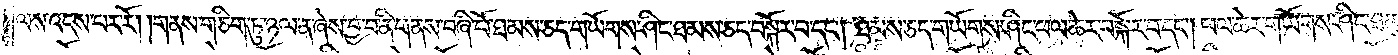ལས་འདས་པར་རོ། །གནས་གཅིག་ཏུ་ཉལ་ན་ཞེས་བྱ་བ་ནི་གནས་བཞི་པོ་ཐམས་ཅད་གཡོགས་ཤིང་ཐམས་ཅད་བསྐོར་བ་དང༌། ཐམས་ཅད་གཡོགས་ཤིང་ཕལ་ཆེར་བསྐོར་བ་དང༌། ཕལ་ཆེར་གཡོགས་ཤིང་ཐམས་
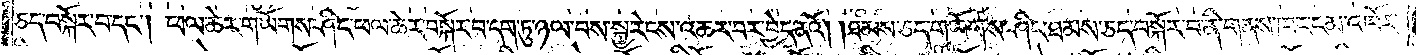ཅད་བསྐོར་བ་དང༌། ཕལ་ཆེར་གཡོགས་ཤིང་ཕལ་ཆེར་བསྐོར་བ་དག་ཏུ་ཉལ་བས་སྐྱ་རེངས་འཆར་བར་བྱེད་ནའོ། །ཐམས་ཅད་གཡོགས་ཤིང་ཐམས་ཅད་བསྐོར་བ་ནི་གནས་ཁང་ངམ་འཁོར་
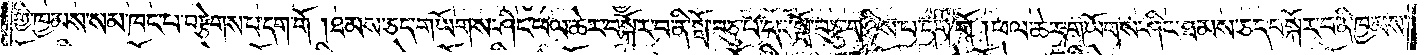གྱི་ཁྱམས་སམ་ཁང་པ་བརྩེགས་པ་དག་གོ །ཐམས་ཅད་གཡོགས་ཤིང་ཕལ་ཆེར་བསྐོར་བ་ནི་སྒོ་བཅུ་པ་དང་སྒོ་བཅུ་གཉིས་པ་དག་གོ །ཕལ་ཆེར་གཡོགས་ཤིང་ཐམས་ཅད་བསྐོར་བ་ནི་ཁྱམས་
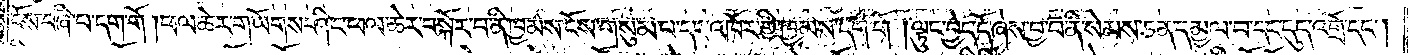ངོས་བཞི་པ་དག་གོ །ཕལ་ཆེར་གཡོགས་ཤིང་ཕལ་ཆེར་བསྐོར་བ་ནི་ཁྱམས་ངོས་གསུམ་པ་དང་འཁོར་གྱི་ཁྱམས་དག་གོ །ལྟུང་བྱེད་དོ་ཞེས་བྱ་བ་ནི་སེམས་ཅན་དམྱལ་བ་དང་དུད་འགྲོ་དང༌།
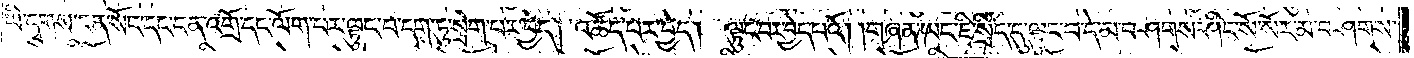ཡི་དྭགས་ངན་སོང་དང་ངན་འགྲོ་དང་ལོག་པར་ལྟུང་བ་དག་ཏུ་སྲེག་པར་བྱེད། འཚོད་པར་བྱེད། ལྟུང་བར་བྱེད་པའོ། །གཞན་ཡང་ཇི་སྲིད་དུ་ལྟུང་བ་དེ་མ་བཤགས་ཤིང་སོ་སོར་མ་བཤགས་
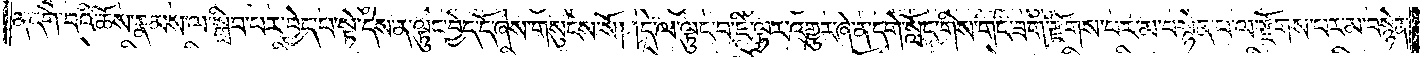ན་དགེ་བའི་ཆོས་རྣམས་ལ་སྒྲིབ་པར་བྱེད་པ་སྟེ་དེས་ན་ལྟུང་བྱེད་དོ་ཞེས་གསུངས་སོ། །དེ་ལ་ལྟུང་བ་ཇི་ལྟར་འགྱུར་ཞེ་ན་དགེ་སློང་གིས་གང་ཟག་རྫོགས་པར་མ་བསྙེན་པ་ལ་རྫོགས་པར་མ་བསྙེན་
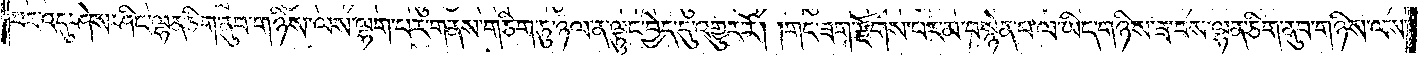པར་འདུ་ཤེས་ཤིང་ལྷན་ཅིག་ནུབ་གཉིས་ལས་ལྷག་པར་གནས་གཅིག་ཏུ་ཉལ་ན་ལྟུང་བྱེད་དུ་འགྱུར་རོ། །གང་ཟག་རྫོགས་པར་མ་བསྙེན་པ་ལ་ཡིད་གཉིས་ཟ་བས་ལྷན་ཅིག་ནུབ་གཉིས་ལས་
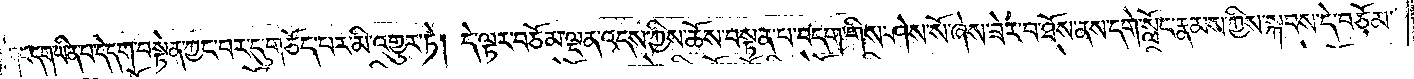གང་དག་ཡིན་པ་དེ་དག་བསྟེན་ཀྱང་བར་དུ་གཅོད་པར་མི་འགྱུར་ཏེ། དེ་ལྟར་བཅོམ་ལྡན་འདས་ཀྱིས་ཆོས་བསྟན་པ་བདག་གིས་ཤེས་སོ་ཞེས་ཟེར་བ་ཐོས་ནས་དགེ་སློང་རྣམས་ཀྱིས་སྐབས་དེ་བཅོམ་
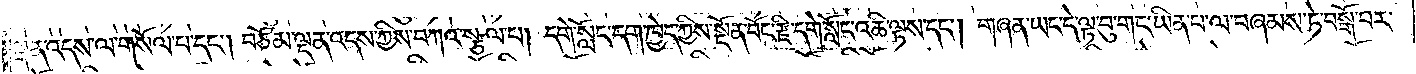ལྡན་འདས་ལ་གསོལ་པ་དང༌། བཅོམ་ལྡན་འདས་ཀྱིས་བཀའ་སྩལ་པ། དགེ་སློང་དག་ཁྱེད་ཀྱིས་སྔོན་བོང་རྫི་དགེ་སློང་འཆི་ལྟས་དང༌། གཞན་ཡང་དེ་ལྟ་བུ་གང་ཡིན་པ་ལ་བཞམས་ཏེ་བསྒོ་བར་
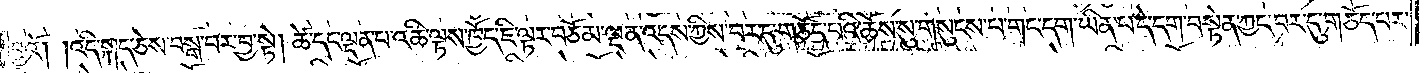བྱའོ། །འདི་སྐད་ཅེས་བསྒོ་བར་བྱ་སྟེ། ཚེ་དང་ལྡན་པ་འཆི་ལྟས་ཁྱོད་ཇི་ལྟར་བཅོམ་ལྡན་འདས་ཀྱིས་བར་དུ་གཅོད་པའི་ཆོས་སུ་གསུངས་པ་གང་དག་ཡིན་པ་དེ་དག་བསྟེན་ཀྱང་བར་དུ་གཅོད་པར་
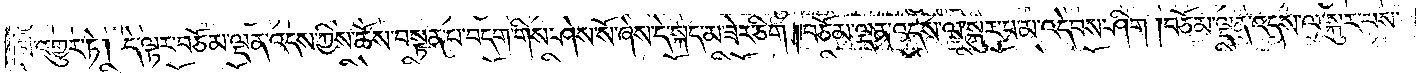མི་འགྱུར་ཏེ། དེ་ལྟར་བཅོམ་ལྡན་འདས་ཀྱིས་ཆོས་བསྟན་པ་བདག་གིས་ཤེས་སོ་ཞེས་དེ་སྐད་མ་ཟེར་ཅིག །བཅོམ་ལྡན་འདས་ལ་སྐུར་པ་མ་འདེབས་ཤིག །བཅོམ་ལྡན་འདས་ལ་སྐུར་པས་
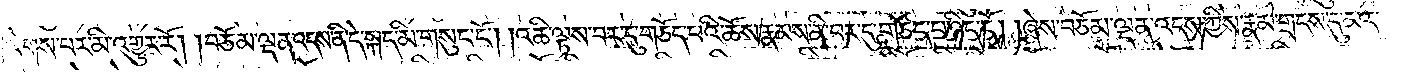ལེགས་པར་མི་འགྱུར་རོ། །བཅོམ་ལྡན་འདས་ནི་དེ་སྐད་མི་གསུང་ངོ༌། །འཆི་ལྟས་བར་དུ་གཅོད་པའི་ཆོས་རྣམས་ནི་བར་དུ་གཅོད་པ་ཉིད་དོ། །ཞེས་བཅོམ་ལྡན་འདས་ཀྱིས་རྣམ་གྲངས་དུ་མར་
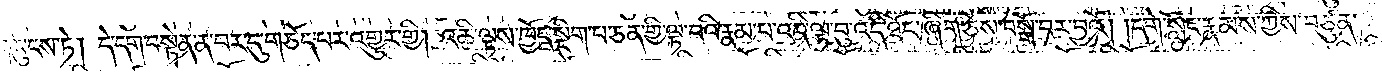གསུངས་ཏེ། དེ་དག་བསྟེན་ན་བར་དུ་གཅོད་པར་འགྱུར་གྱི། འཆི་ལྟས་ཁྱོད་སྡིག་པ་ཅན་གྱི་ལྟ་བའི་རྣམ་པ་འདི་ལྟ་བུ་འདི་ཐོང་ཞིག་ཅེས་བསྒོ་བར་བྱའོ། །དགེ་སློང་རྣམས་ཀྱིས་བཙུན་
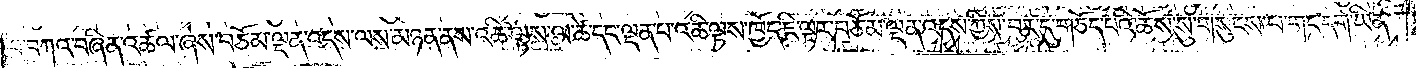པ་བཀའ་བཞིན་འཚལ་ཞེས་བཅོམ་ལྡན་འདས་ལས་མཉན་ནས་འཆི་ལྟས་ལ་ཚེ་དང་ལྡན་པ་འཆི་ལྟས་ཁྱོད་ཇི་ལྟར་བཅོམ་ལྡན་འདས་ཀྱིས་བར་དུ་གཅོད་པའི་ཆོས་སུ་གསུངས་པ་གང་དག་ཡིན་
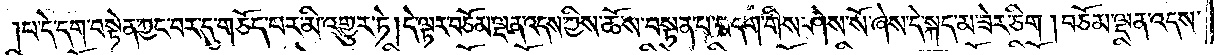པ་དེ་དག་བསྟེན་ཀྱང་བར་དུ་གཅོད་པར་མི་འགྱུར་ཏེ། དེ་ལྟར་བཅོམ་ལྡན་འདས་ཀྱིས་ཆོས་བསྟན་པ་བདག་གིས་ཤེས་སོ་ཞེས་དེ་སྐད་མ་ཟེར་ཅིག །བཅོམ་ལྡན་འདས་
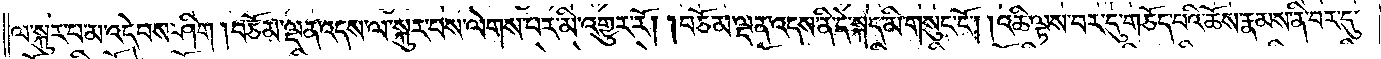ལ་སྐུར་པ་མ་འདེབས་ཤིག །བཅོམ་ལྡན་འདས་ལ་སྐུར་པས་ལེགས་པར་མི་འགྱུར་རོ། །བཅོམ་ལྡན་འདས་ནི་དེ་སྐད་མི་གསུང་ངོ༌། །འཆི་ལྟས་པར་དུ་གཅོད་པའི་ཆོས་རྣམས་ནི་བར་དུ་
